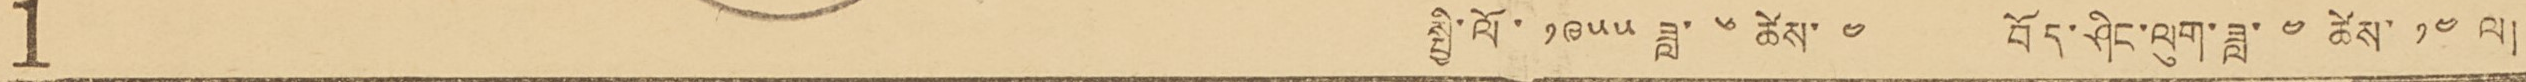1 སྤྱི་ལོ་ ༡༩༥༥ ཟླ་ ༦ ཚེས་ ༤ བོད་ཤིང་ལུག་ཟླ་༤་ཚེས་ ༡༤ ལ།
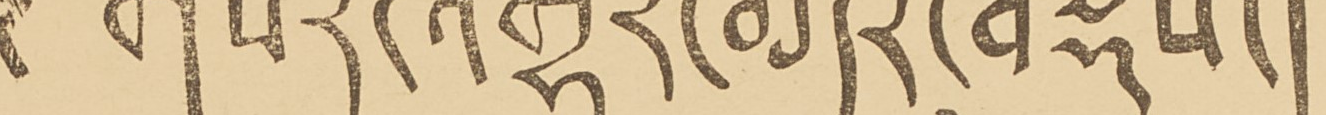༈ གསར་འགྱུར་མདོར་བསྡུས་།
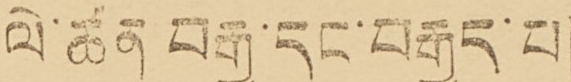ལེ་ཚན་བརྒྱ་དང་བརྒྱད་པ།
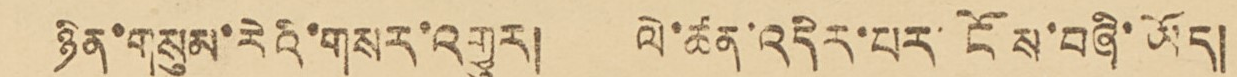ཉིན་གསུམ་རེའི་གསར་འགྱུར། ལེ་ཚན་འདི་པར་ངོས་བཞི་ཡོད།
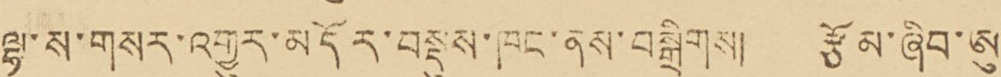ལྷ་ས་གསར་འགྱུར་མདོར་བསྡུས་ཁང་ནས་བསྒྲིགས། རྩོམ་ཞིབ་ཨུ་
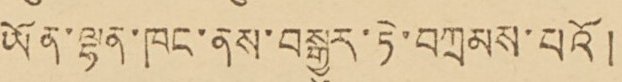ཡོན་ལྷན་ཁང་ནས་བསྒྱུར་ཏེ་བཀྲམས་པའོ།
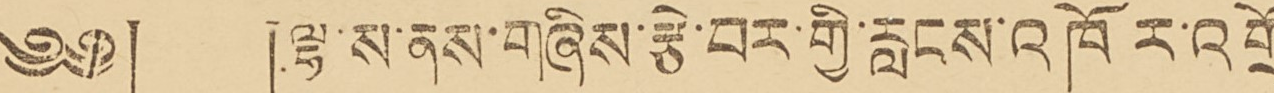༄༅། །ལྷ་ས་ནས་གཞིས་རྩེ་བར་གྱི་རླངས་འཁོར་འགྲོ་
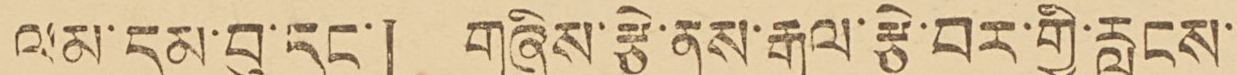ལམ་བུ་དང། གཞིས་རྩེ་ནས་རྒྱལ་རྩེ་བར་གྱི་རླངས་
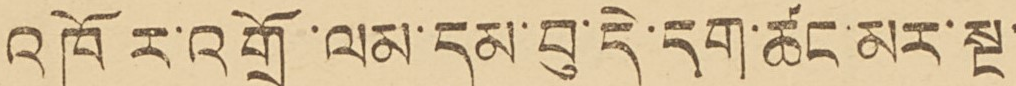འཁོར་འགྲོ་ལམ་དུམ་བུ་དེ་དག་ཚང་མར་སྔ་
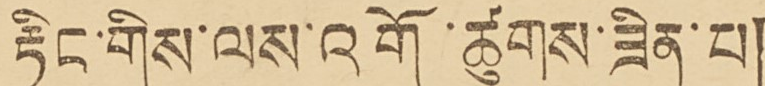རྟིང་གིས་ལས་འགོ་ཚུགས་ཟིན་པ།
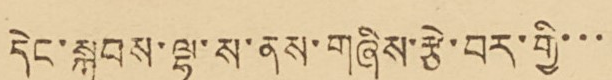དེང་སྐབས་ལྷ་ས་ནས་གཞིས་རྩེ་བར་གྱི་་་
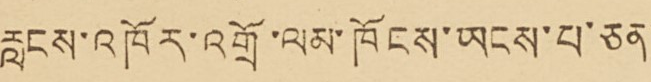རླངས་འཁོར་འགྲོ་ལམ་ཁོངས་ཡངས་པ་ཅན་
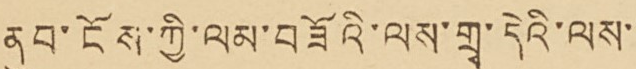ནུབ་ངོས་ཀྱི་ལམ་བཟོའི་ལས་གྲྭ་དེའི་ལས་་་
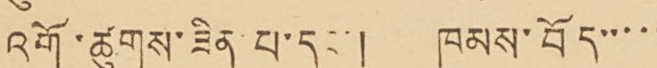འགོ་ཚུགས་ཟིན་པ་དང་། ཁམས་བོད་་་་་
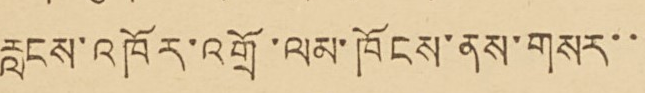རླངས་འཁོར་འགྲོ་ལམ་ཁོངས་ནས་གསར་་་
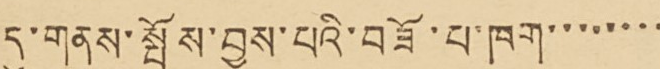དུ་གནས་སྤོས་བྱས་པའི་བཟོ་པ་ཁག་་་་་་་་
